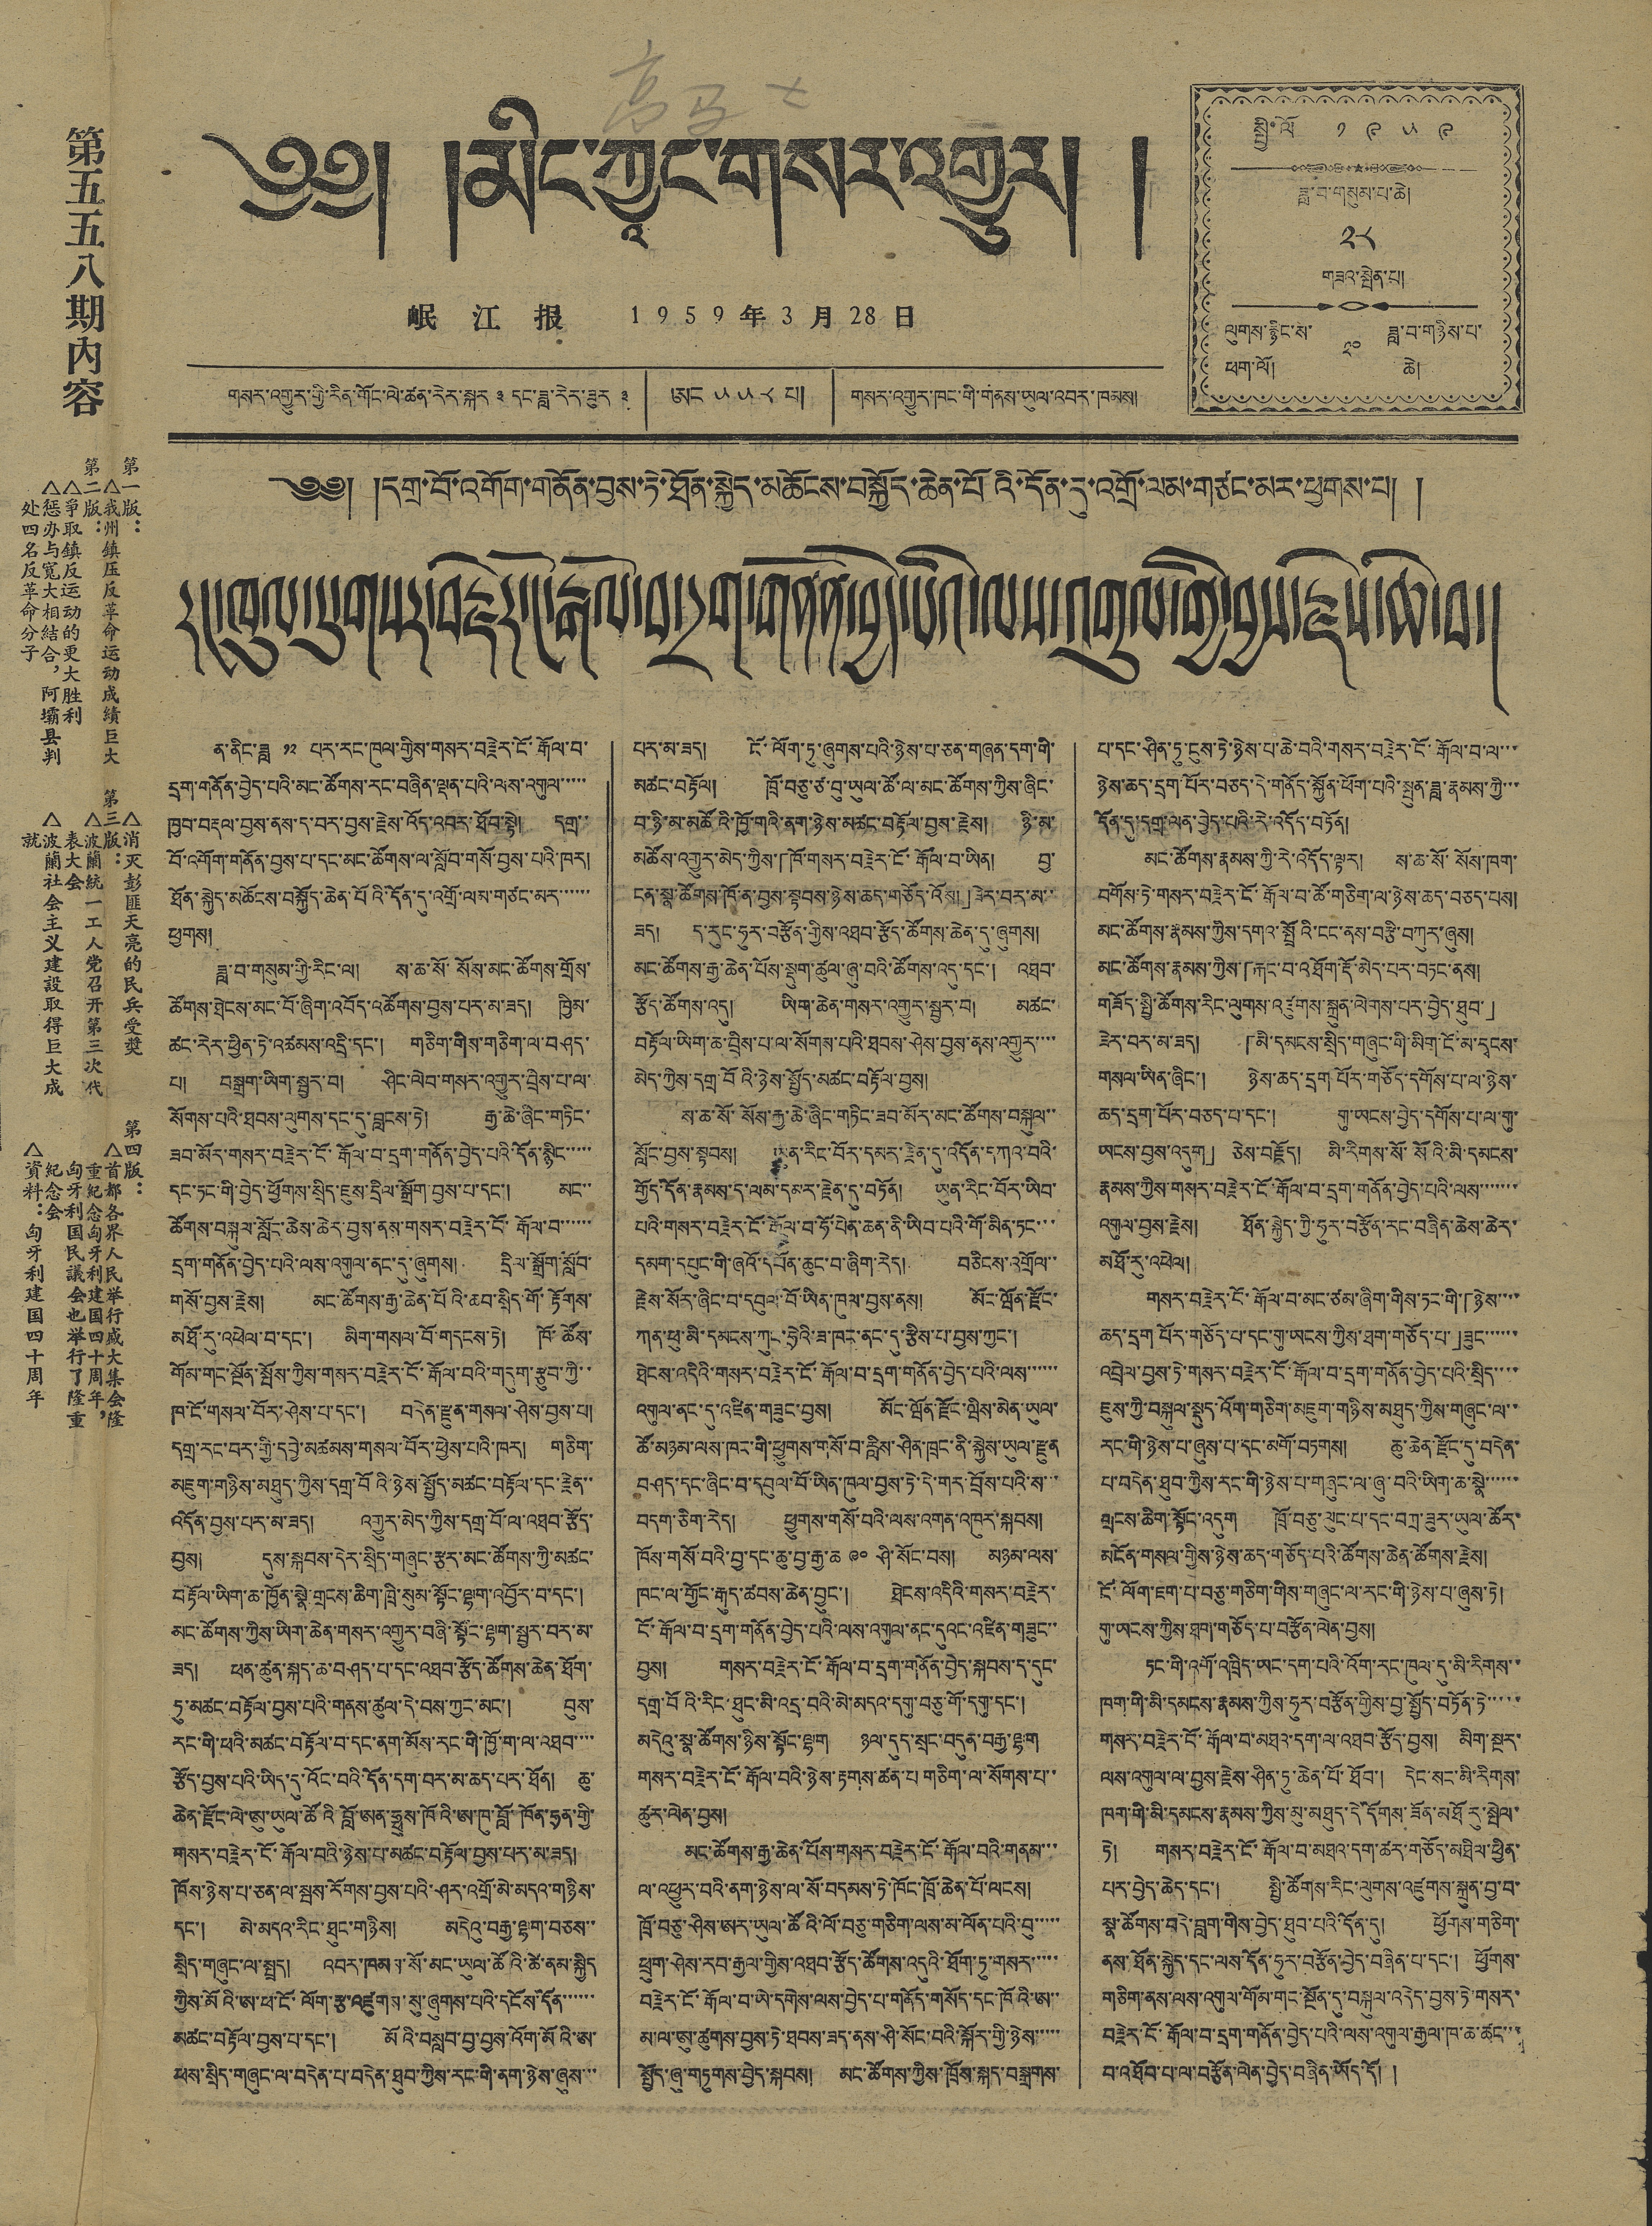༄༅། །མིང་ཀྱཱང་གསར་འགྱུར། །
第五五八期內容
第一版：
△我州鎮压反革命运动成績巨大
第二版：
△爭取鎮反运动的更大胜利
△惩办与寬大相結合，阿壩县判
处四名反革命分子
△消灭彭匪天亮的民兵受獎
第三版：
△波蘭統一工人党召开第三次代
表大会
△波蘭社会主义建設取得巨大成
就
第四版：
△首都各界人民举行盛大集会隆
重紀念匈牙利建国四十周年，
△匈牙利国民議会也举行了隆重
紀念会
△資料：匈牙利建国四十周年
岷 江 报 1 9 5 9 年 3 月 28 日
གསར་འགྱུར་གྱི་རིན་གོང་ལེ་ཚན་རེར་སྐར ༣ དང་ཟླ་རེར་ཟུར ༣ ཨང ༥༥༨ པ། གསར་འགྱུར་ཁང་གི་གནས་ཡུལ་འབར་ཁམས།
སྤྱི་ལོ ༡ ༩ ༥ ༩
ཟླ་བ་གསུམ་པ་ཆེ།
༢༨
གཟའ་སྤེན་པ།
ལུགས་རྙིང་ས་
ཕག་ལོ།
༢༠
ཟླ་བ་གཉིས་པ་
ཆེ།
༄༅། །དགྲ་བོ་འགོག་གནོན་བྱས་ཏེ་ཐོན་སྐྱེད་མཆོངས་བསྐྱོད་ཆེན་པོའི་དོན་དུ་འགྲོ་ལམ་གཙང་མར་ཕྱགས་པ། །
རང་ཁུལ་དུ་གསར་བརྗེར་ངོ་རྒོལ་བ་དྲག་གནོན་བྱེད་པའི་ལས་འགུལ་གྱི་བྱས་རྗེས་ཆེ་བ།
ན་ནིང་ཟླ ༡༢ པར་རང་ཁུལ་གྱིས་གསར་བརྗེར་ངོ་རྒོལ་བ་
དྲག་གནོན་བྱེད་པའི་མང་ཚོགས་རང་བཞིན་ལྡན་པའི་ལས་འགུལ་་་་་
ཁྱབ་བརྡལ་བྱས་ནས་ད་བར་བྱས་རྗེས་འོད་འབར་ཐོབ་སྟེ། དགྲ་་
བོ་འགོག་གནོན་བྱས་པ་དང་མང་ཚོགས་ལ་སློབ་གསོ་བྱས་པའི་ཁར།
ཐོན་སྐྱེད་མཆོངས་བསྐྱོད་ཆེན་པོའི་དོན་དུ་འགྲོ་ལམ་གཙང་མར་་་་་་
ཕྱགས།
ཟླ་བ་གསུམ་གྱི་རིང་ལ། ས་ཆ་སོ་སོས་མང་ཚོགས་གྲོས་
ཚོགས་ཐེངས་མང་བོ་ཞིག་འབོད་འཚོགས་བྱས་པར་མ་ཟད། ཁྱིམ་
ཚང་རེར་ཕྱིན་ཏེ་འཚམས་འདྲི་དང་། གཅིག་གིས་གཅིག་ལ་བཤད་
པ། བསྒྲག་ཡིག་སྦྱར་བ། ཤིང་ལེབ་གསར་འགྱུར་བྲིས་པ་ལ་
སོགས་པའི་ཐབས་ལུགས་དང་དུ་བླངས་ཏེ། རྒྱ་ཆེ་ཞིང་གཏིང་
ཟབ་མོར་གསར་བརྗེར་ངོ་རྒོལ་བ་དྲག་གནོན་བྱེད་པའི་དོན་སྙིང་་་་་
དང་ཏང་གི་བྱེད་ཕྱོགས་སྲིད་ཇུས་དྲིལ་སྒྲོག་བྱས་པ་དང་། མང་་
ཚོགས་བསྐུལ་སློང་ཆེས་ཆེར་བྱས་ནས་གསར་བརྗེར་ངོ་རྒོལ་བ་་་་་་
དྲག་གནོན་བྱེད་པའི་ལས་འགུལ་ནང་དུ་ཞུགས། དྲིལ་སྒྲོག་སློབ་
གསོ་བྱས་རྗེས། མང་ཚོགས་རྒྱ་ཆེན་པོའི་ཆབ་སྲིད་གོ་རྟོགས་
མཐོ་རུ་འཕེལ་བ་དང་། མིག་གསལ་བོ་གདངས་ཏེ། ཁོ་ཚོས་
གོམ་གང་སྔོན་སྤོས་ཀྱིས་གསར་བརྗེར་ངོ་རྒོལ་བའི་གདུག་རྩུབ་ཀྱི་་
ཁ་ངོ་གསལ་བོར་ཤེས་པ་དང་། བདེན་རྫུན་གསལ་ཤེས་བྱས་པ།
དགྲ་རང་བར་གྱི་དབྱེ་མཚམས་གསལ་བོར་ཕྱེས་པའི་ཁར། གཅིག་
མཇུག་གཉིས་མཐུད་ཀྱིས་དགྲ་བོའི་ཉེས་སྤྱོད་མཚང་བརྟོལ་དང་རྗེན་་
འདོན་བྱས་པར་མ་ཟད། འགྱུར་མེད་ཀྱིས་དགྲ་བོ་ལ་འཐབ་རྩོད་
བྱས། དུས་སྐབས་དེར་སྲིད་གཞུང་རྩར་མང་ཚོགས་ཀྱི་མཚང་
བརྟོལ་ཡིག་ཆ་ཁྱོན་སྣེ་གྲངས་ཆིག་ཁྲི་སུམ་སྟོང་ལྷག་འབྱོར་བ་དང་།
མང་ཚོགས་ཀྱིས་ཡིག་ཆེན་གསར་འགྱུར་བཞི་སྟོང་ལྷག་སྦྱར་བར་མ་
ཟད། ཕན་ཚུན་སྐད་ཆ་བཤད་པ་དང་འཐབ་རྩོད་ཚོགས་ཆེན་ཐོག་
ཏུ་མཚང་བརྟོལ་བྱས་པའི་གནས་ཚུལ་དེ་བས་ཀྱང་མང་། བུས་
རང་གི་ཕའི་མཚང་བརྟོལ་བ་དང་ནག་མོས་རང་གི་ཁྱོ་ག་ལ་འཐབ་་་་
རྩོད་བྱས་པའི་ཡིད་དུ་འོང་བའི་དོན་དག་བར་མ་ཆད་པར་ཐོན། ཆུ་
ཆེན་རྫོང་ལེ་ཨུ་ཡུལ་ཚོའི བློ་ཨན་ཧྥུས་ཁོའི་ཨ་ཁུ་བློ་ཁོན་ཧྲན་གྱི་
གསར་བརྗེར་ངོ་རྒོལ་བའི་ཉེས་པ་མཚང་བརྟོལ་བྱས་པར་མ་ཟད།
ཁོས་ཉེས་པ་ཅན་ལ་སྦས་རོགས་བྱས་པའི་ཤར་འགྲོ་མེ་མདའ་གཉིས་
དང་། མེ་མདའ་རིང་ཐུང་གཉིས། མདེའུ་བརྒྱ་ལྷག་བཅས་་
སྲིད་གཞུང་ལ་སྤྲད། འབར་ཁམས་སོ་མང་ཡུལ་ཚོའི་ཚེ་ནམ་སྐྱིད
ཀྱིས་མོའི་ཨ་ཕ་ངོ་ལོག་རྩ་འཛུགས་སུ་ཞུགས་པའི་དངོས་དོན་་་་་་
མཚང་བརྟོལ་བྱས་པ་དང་། མོའི་བསླབ་བྱ་བྱས་འོག་མོའི་ཨ་
ཕས་སྲིད་གཞུང་ལ་བདེན་པ་བདེན་ཐུབ་ཀྱིས་རང་གི་ནག་ཉེས་ཞུས་་་
པར་མ་ཟད། ངོ་ལོག་ཏུ་ཞུགས་པའི་ཉེས་པ་ཅན་གཞན་དག་གི་
མཚང་བརྟོལ། ཁྲོ་བཅུ་ཙ་བུ་ཡུལ་ཚོ་ལ་མང་ཚོགས་ཀྱིས་ཞིང་
བ་ཉི་མ་མཚོའི་ཁྱོ་གའི་ནག་ཉེས་མཚང་བརྟོལ་བྱས་རྗེས། ཉི་མ་
མཚོས་འགྱུར་མེད་ཀྱིས་「ཁོ་གསར་བརྗེར་ངོ་རྒོལ་བ་ཡིན། བྱ་
ངན་སྣ་ཚོགས་ཁོ་ན་བྱས་སྟབས་ཉེས་ཆད་གཅོད་འོས།」ཟེར་བར་མ་་
ཟད། ད་རུང་ཧུར་བརྩོན་གྱིས་འཐབ་རྩོད་ཚོགས་ཆེན་དུ་ཞུགས།
མང་ཚོགས་རྒྱ་ཆེན་པོས་སྡུག་ཚུལ་ཞུ་བའི་ཚོགས་འདུ་དང་། འཐབ་
རྩོད་ཚོགས་འདུ། ཡིག་ཆེན་གསར་འགྱུར་སྦྱར་བ། མཚང་
བརྟོལ་ཡིག་ཆ་བྲིས་པ་ལ་སོགས་པའི་ཐབས་ཤེས་བྱས་ནས་འགྱུར་་་་
མེད་ཀྱིས་དགྲ་བོའི་ཉེས་སྤྱོད་མཚང་བརྟོལ་བྱས།
ས་ཆ་སོ་སོས་རྒྱ་ཆེ་ཞིང་གཏིང་ཟབ་མོར་མང་ཚོགས་བསྐུལ་་
སློང་བྱས་སྟབས། ཡུན་རིང་བོར་དམར་རྗེན་དུ་འདོན་དཀའ་བའི་
གྱོད་དོན་རྣམས་ད་ལམ་དམར་རྗེན་དུ་བཏོན། ཡུན་རིང་བོར་ཡིབ་
པའི་གསར་བརྗེར་ངོ་རྒོལ་བ་ཧོ་པེན་ཆན་ནི་ཡིབ་པའི་གོ་མིན་ཏང་་་
དམག་དཔུང་གི་ཞའོ་དཔོན་ཆུང་བ་ཞིག་རེད། བཅིངས་འགྲོལ་་
རྗེས་སོར་ཞིང་བ་དབུལ་བོ་ཡིན་ཁུལ་བྱས་ནས། མོང་ཝོན་རྫོང་
ཀན་ཕུ་མི་དམངས་ཀུང་ཧྲེའི་ཟ་ཁང་ནང་དུ་རྩིས་པ་བྱས་ཀྱང་།
ཐེངས་འདིའི་གསར་བརྗེར་ངོ་རྒོལ་བ་དྲག་གནོན་བྱེད་པའི་ལས་་་་་་
འགུལ་ནང་དུ་འཛིན་གཟུང་བྱས། མོང་ཝོན་རྫོང་ཝིས་མེན་ཡུལ་
ཚོ་མཉམ་ལས་ཁང་གི་ཕྱུགས་གསོ་བ་རླིས་ཤིན་ཁྲང་ནི་སྐྱེས་ཡུལ་རྫུན
བཤད་དང་ཞིང་བ་དབུལ་བོ་ཡིན་ཁུལ་བྱས་ཏེ་དེ་གར་བྲོས་པའི་ས་་་
བདག་ཅིག་རེད། ཕྱུགས་གསོ་བའི་ལས་འགན་འཁུར་སྐབས།
ཁོས་གསོ་བའི་བྱ་དང་ཆུ་བྱ་རྒྱ་ཆ ༩༠ ཤི་སོང་བས། མཉམ་ལས་
ཁང་ལ་གྱོང་རྒུད་ཚབས་ཆེན་བྱུང་། ཐེངས་འདིའི་གསར་བརྗེར་
ངོ་རྒོལ་བ་དྲག་གནོན་བྱེད་པའི་ལས་འགུལ་ནང་དུའང་འཛིན་གཟུང་་
བྱས། གསར་བརྗེར་ངོ་རྒོལ་བ་དྲག་གནོན་བྱེད་སྐབས་ད་དུང་
དགྲ་བོའི་རིང་ཐུང་མི་འདྲ་བའི་མེ་མདའ་དགུ་བཅུ་གོ་དགུ་དང་།
མདེའུ་སྣ་ཚོགས་ཉིས་སྟོང་ལྷག ཉལ་དུད་སྲང་བདུན་བརྒྱ་ལྷག
གསར་བརྗེར་ངོ་རྒོལ་བའི་ཉེས་རྟགས་ཚན་པ་གཅིག་ལ་སོགས་པ་་
ཚུར་ལེན་བྱས།
མང་ཚོགས་རྒྱ་ཆེན་པོས་གསར་བརྗེར་ངོ་རྒོལ་བའི་གནམ་་་
ལ་འཕྱུར་བའི་ནག་ཉེས་ལ་སོ་བདམས་ཏེ་ཁོང་ཁྲོ་ཆེན་པོ་ལངས།
ཁྲོ་བཅུ་ཤིས་ཨར་ཡུལ་ཚོའི་ལོ་བཅུ་གཅིག་ལས་མ་ལོན་པའི་བུ་་་་་
ཕྲུག་ཤེས་རབ་རྒྱལ་གྱིས་འཐབ་རྩོད་ཚོགས་འདུའི་ཐོག་ཏུ་གསར་་་་་
བརྗེར་ངོ་རྒོལ་བ་ཡེ་དགེས་ལས་བྱེད་པ་གནོད་གསོད་དང་ཁོའི་ཨ་་
མ་ལ་ཨུ་ཚུགས་བྱས་ཏེ་ཐབས་ཟད་ནས་ཤི་སོང་བའི་སྐོར་གྱི་ཉེས་་་་་
སྤྱོད་ཞུ་གཏུགས་བྱེད་སྐབས། མང་ཚོགས་ཀྱིས་ཁྲོས་སྐད་བསྒྲགས་
པ་དང་ཤིན་ཏུ་ངུས་ཏེ་ཉེས་པ་ཆེ་བའི་གསར་བརྗེར་ངོ་རྒོལ་བ་ལ་་་
ཉེས་ཆད་དྲག་པོར་བཅད་དེ་གནོད་སྐྱོན་ཕོག་པའི་སྤུན་ཟླ་རྣམས་ཀྱི་་་
དོན་དུ་དགྲ་ལན་བྱེད་པའི་རེ་འདོད་བཏོན།
མང་ཚོགས་རྣམས་ཀྱི་རེ་འདོད་ལྟར། ས་ཆ་སོ་སོས་ཁག་
བགོས་ཏེ་གསར་བརྗེར་ངོ་རྒོལ་བ་ཚོ་གཅིག་ལ་ཉེས་ཆད་བཅད་པས།
མང་ཚོགས་རྣམས་ཀྱིས་དགའ་སྤྲོའི་ངང་ནས་བརྩི་བཀུར་ཞུས།
མང་ཚོགས་རྣམས་ཀྱིས་「རྐང་བ་འཐོག་རྡོ་མེད་པར་བཏང་ནས།
གཟོད་སྤྱི་ཚོགས་རིང་ལུགས་འཛུགས་སྐྲུན་ལེགས་པར་བྱེད་ཐུབ་」
ཟེར་བར་མ་ཟད། 「མི་དམངས་སྲིད་གཞུང་གི་མིག་ངོ་མ་དྭངས་
གསལ་ཡིན་ཞིང་། ཉེས་ཆད་དྲག པོར་གཅོད་དགོས་པ་ལ་ཉེས་
ཆད་དྲག་པོར་བཅད་པ་དང་། གུ་ཡངས་བྱེད་དགོས་པ་ལ་གུ་
ཡངས་བྱས་འདུག」 ཅེས་བརྗོད། མི་རིགས་སོ་སོའི་མི་དམངས་
རྣམས་ཀྱིས་གསར་བརྗེར་ངོ་རྒོལ་བ་དྲག་གནོན་བྱེད་པའི་ལས་་་་་་་
འགུལ་བྱས་རྗེས། ཐོན་སྐྱེད་ཀྱི་ཧུར་བརྩོན་རང་བཞིན་ཆེས་ཆེར་
མཐོ་རུ་འཕེལ།
གསར་བརྗེར་ངོ་རྒོལ་བ་མང་ཙམ་ཞིག་གིས་ཏང་གི་「ཉེས་་་་
ཆད་དྲག་པོར་གཅོད་པ་དང་གུ་ཡངས་ཀྱིས་ཐག་གཅོད་པ་」ཟུང་་་་་་
འབྲེལ་བྱས་ཏེ་གསར་བརྗེར་ངོ་རྒོལ་བ་དྲག་གནོན་བྱེད་པའི་སྲིད་་་་
ཇུས་ཀྱི་བསྐུལ་སྡུད་འོག་གཅིག་མཇུག་གཉིས་མཐུད་ཀྱིས་གཞུང་ལ་་
རང་གི་ཉེས་པ་ཞུས་པ་དང་མགོ་བཏགས། ཆུ་ཆེན་རྫོང་དུ་བདེན་
པ་བདེན་ཐུབ་ཀྱིས་རང་གི་ཉེས་པ་གཞུང་ལ་ཞུ་བའི་ཡིག་ཆ་སྣེ་་་་་་
གྲངས་ཆིག་སྟོང་འདུག ཁྲོ་བཅུ་ལུང་པ་དང་བཀྲ་ཟུར་ཡུལ་ཚོར་
མངོན་གསལ་གྱིས་ཉེས་ཆད་གཅོད་པའི་ཚོགས་ཆེན་ཚོགས་རྗེས།
ངོ་ལོག་ཇག་པ་བཅུ་གཅིག་གིས་གཞུང་ལ་རང་གི་ཉེས་པ་ཞུས་ཏེ།
གུ་ཡངས་ཀྱིས་ཐག་གཅོད་པ་བརྩོན་ལེན་བྱས།
ཏང་གི་འགོ་འཁྲིད་ཡང་དག་པའི་འོག་རང་ཁུལ་དུ་མི་རིགས་་
ཁག་གི་མི་དམངས་རྣམས་ཀྱིས་ཧུར་བརྩོན་གྱིས་བྱ་སྤྱོད་བཏོན་ཏེ་་་་་
གསར་བརྗེར་ངོ་རྒོལ་བ་མཐའ་དག་ལ་འཐབ་རྩོད་བྱས། མིག་སྔར་
ལས་འགུལ་ལ་བྱས་རྗེས་ཤིན་ཏུ་ཆེན་པོ་ཐོབ་། དེང་སང་མི་རིགས་
ཁག་གི་མི་དམངས་རྣམས་ཀྱིས་མུ་མཐུད་དེ་དོགས་ཟོན་མཐོ རུ་སྤེལ་
ཏེ། གསར་བརྗེར་ངོ་རྒོལ་བ་མཐའ་དག་ཚར་གཅོད་མཐིལ་ཕྱིན་
པར་བྱེད་ཆེད་དང་། སྤྱི་ཚོགས་རིང་ལུགས་འཛུགས་སྐྲུན་བྱ་བ་
སྣ་ཚོགས་བདེ་བླག་གིས་བྱེད་ཐུབ་པའི་དོན་དུ། ཕྱོགས་གཅིག་
ནས་ཐོན་སྐྱེད་དང་ལས་དོན་ཧུར་བརྩོན་བྱེད་བཞིན་པ་དང་། ཕྱོགས་
གཅིག་ནས་ལས་འགུལ་གོམ་གང་སྔོན་དུ་བསྐུལ་འདེད་བྱས་ཏེ་གསར་
བརྗེར་ངོ་རྒོལ་བ་དྲག་གནོན་བྱེད་པའི་ལས་འགུལ་རྒྱལ་ཆ་ཚང་་་
བ་འཐོབ་པ་ལ་བརྩོན་ལེན་བྱེད་བཞིན་ཡོད་དོ། །
